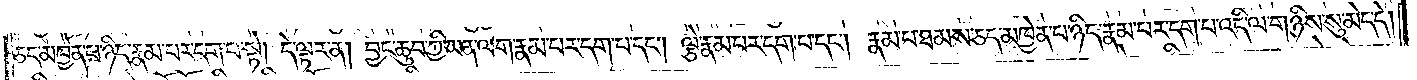ཅད་མཁྱེན་པ་ཉིད་རྣམ་པར་དག་པ་སྟེ། དེ་ལྟར་ན། བྱང་ཆུབ་ཀྱི་ཡན་ལག་རྣམ་པར་དག་པ་དང༌། ལྕེ་རྣམ་པར་དག་པ་དང༌། རྣམ་པ་ཐམས་ཅད་མཁྱེན་པ་ཉིད་རྣམ་པར་དག་པ་འདི་ལ་གཉིས་སུ་མེད་དེ།
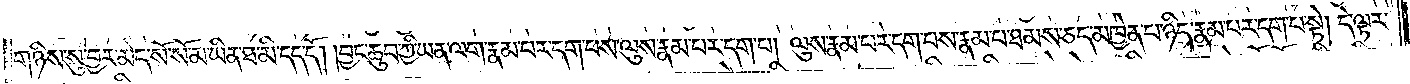གཉིས་སུ་བྱར་མེད་སོ་སོ་མ་ཡིན་ཐ་མི་དད་དོ། །བྱང་ཆུབ་ཀྱི་ཡན་ལག་རྣམ་པར་དག་པས་ལུས་རྣམ་པར་དག་པ། ལུས་རྣམ་པར་དག་པས་རྣམ་པ་ཐམས་ཅད་མཁྱེན་པ་ཉིད་རྣམ་པར་དག་པ་སྟེ། དེ་ལྟར་
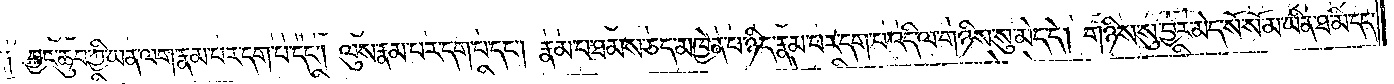ན༑ བྱང་ཆུབ་ཀྱི་ཡན་ལག་རྣམ་པར་དག་པ་དང༌། ལུས་རྣམ་པར་དག་པ་དང༌། རྣམ་པ་ཐམས་ཅད་མཁྱེན་པ་ཉིད་རྣམ་པར་དག་པ་འདི་ལ་གཉིས་སུ་མེད་དེ། གཉིས་སུ་བྱར་མེད་སོ་སོ་མ་ཡིན་ཐ་མི་དད་
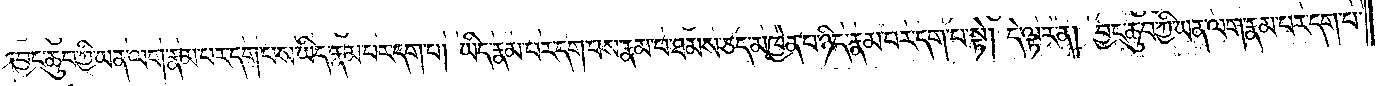བྱང་ཆུབ་ཀྱི་ཡན་ལག་རྣམ་པར་དག་པས་ཡིད་རྣམ་པར་དག་པ། ཡིད་རྣམ་པར་དག་པས་རྣམ་པ་ཐམས་ཅད་མཁྱེན་པ་ཉིད་རྣམ་པར་དག་པ་སྟེ། དེ་ལྟར་ན། བྱང་ཆུབ་ཀྱི་ཡན་ལག་རྣམ་པར་དག་པ་
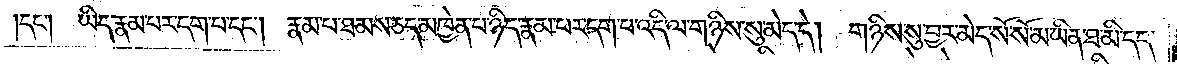དང༌། ཡིད་རྣམ་པར་དག་པ་དང༌། རྣམ་པ་ཐམས་ཅད་མཁྱེན་པ་ཉིད་རྣམ་པར་དག་པ་འདི་ལ་གཉིས་སུ་མེད་དེ། གཉིས་སུ་བྱར་མེད་སོ་སོ་མ་ཡིན་ཐ་མི་དད་
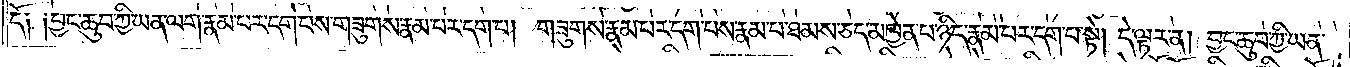དོ༑ ༑བྱང་ཆུབ་ཀྱི་ཡན་ལག་རྣམ་པར་དག་པས་གཟུགས་རྣམ་པར་དག་པ། གཟུགས་རྣམ་པར་དག་པས་རྣམ་པ་ཐམས་ཅད་མཁྱེན་པ་ཉིད་རྣམ་པར་དག་པ་སྟེ། དེ་ལྟར་ན། བྱང་ཆུབ་ཀྱི་ཡན་
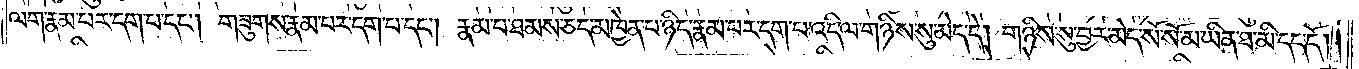ལག་རྣམ་པར་དག་པ་དང༌། གཟུགས་རྣམ་པར་དག་པ་དང༌། རྣམ་པ་ཐམས་ཅད་མཁྱེན་པ་ཉིད་རྣམ་པར་དག་པ་འདི་ལ་གཉིས་སུ་མེད་དེ། གཉིས་སུ་བྱར་མེད་སོ་སོ་མ་ཡིན་ཐ་མི་དད་དོ། །
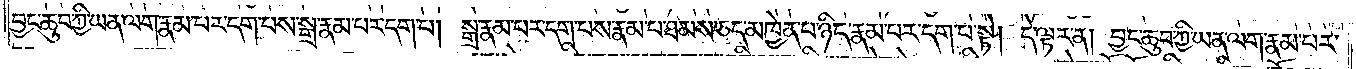བྱང་ཆུབ་ཀྱི་ཡན་ལག་རྣམ་པར་དག་པས་སྒྲ་རྣམ་པར་དག་པ། སྒྲ་རྣམ་པར་དག་པས་རྣམ་པ་ཐམས་ཅད་མཁྱེན་པ་ཉིད་རྣམ་པར་དག་པ་སྟེ། དེ་ལྟར་ན། བྱང་ཆུབ་ཀྱི་ཡན་ལག་རྣམ་པར་
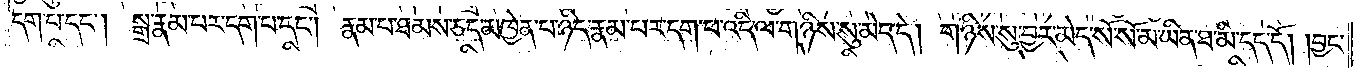དག་པ་དང༌། སྒྲ་རྣམ་པར་དག་པ་དང༌། རྣམ་པ་ཐམས་ཅད་མཁྱེན་པ་ཉིད་རྣམ་པར་དག་པ་འདི་ལ་གཉིས་སུ་མེད་དེ། གཉིས་སུ་བྱར་མེད་སོ་སོ་མ་ཡིན་ཐ་མི་དད་དོ། །བྱང་
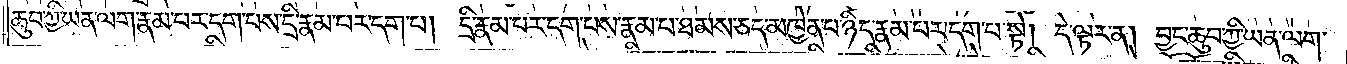ཆུབ་ཀྱི་ཡན་ལག་རྣམ་པར་དག་པས་དྲི་རྣམ་པར་དག་པ། དྲི་རྣམ་པར་དག་པས་རྣམ་པ་ཐམས་ཅད་མཁྱེན་པ་ཉིད་རྣམ་པར་དག་པ་སྟེ། དེ་ལྟར་ན། བྱང་ཆུབ་ཀྱི་ཡན་ལག་
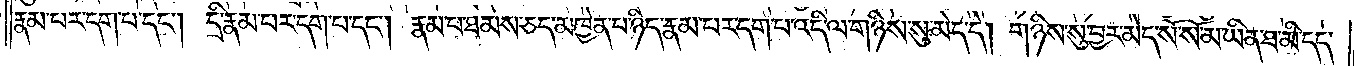རྣམ་པར་དག་པ་དང༌། དྲི་རྣམ་པར་དག་པ་དང༌། རྣམ་པ་ཐམས་ཅད་མཁྱེན་པ་ཉིད་རྣམ་པར་དག་པ་འདི་ལ་གཉིས་སུ་མེད་དེ། གཉིས་སུ་བྱར་མེད་སོ་སོ་མ་ཡིན་ཐ་མི་དད་
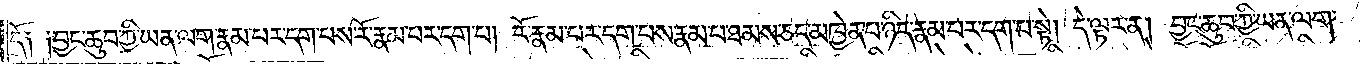དོ༑ ༑བྱང་ཆུབ་ཀྱི་ཡན་ལག་རྣམ་པར་དག་པས་རོ་རྣམ་པར་དག་པ། རོ་རྣམ་པར་དག་པས་རྣམ་པ་ཐམས་ཅད་མཁྱེན་པ་ཉིད་རྣམ་པར་དག་པ་སྟེ། དེ་ལྟར་ན། བྱང་ཆུབ་ཀྱི་ཡན་ལག་
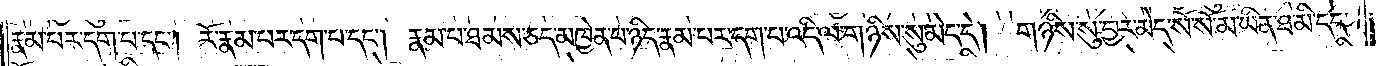རྣམ་པར་དག་པ་དང༌། རོ་རྣམ་པར་དག་པ་དང༌། རྣམ་པ་ཐམས་ཅད་མཁྱེན་པ་ཉིད་རྣམ་པར་དག་པ་འདི་ལ་གཉིས་སུ་མེད་དེ། གཉིས་སུ་བྱར་མེད་སོ་སོ་མ་ཡིན་ཐ་མི་དད་
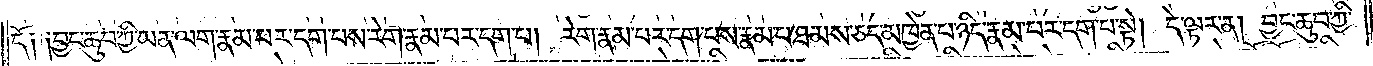དོ༑ ༑བྱང་ཆུབ་ཀྱི་ཡན་ལག་རྣམ་པར་དག་པས་རེག་རྣམ་པར་དག་པ། རེག་རྣམ་པར་དག་པས་རྣམ་པ་ཐམས་ཅད་མཁྱེན་པ་ཉིད་རྣམ་པར་དག་པ་སྟེ། དེ་ལྟར་ན། བྱང་ཆུབ་ཀྱི་
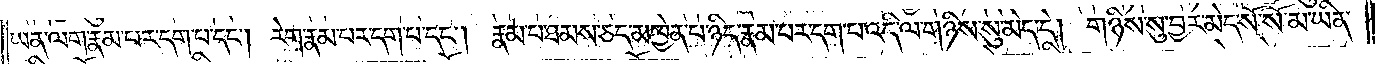ཡན་ལག་རྣམ་པར་དག་པ་དང༌། རེག་རྣམ་པར་དག་པ་དང༌། རྣམ་པ་ཐམས་ཅད་མཁྱེན་པ་ཉིད་རྣམ་པར་དག་པ་འདི་ལ་གཉིས་སུ་མེད་དེ། གཉིས་སུ་བྱར་མེད་སོ་སོ་མ་ཡིན་
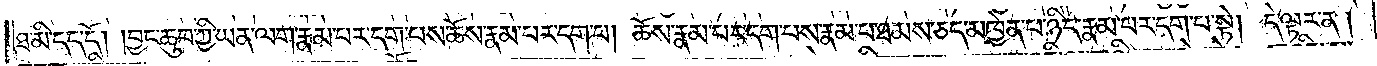ཐ་མི་དད་དོ། །བྱང་ཆུབ་ཀྱི་ཡན་ལག་རྣམ་པར་དག་པས་ཆོས་རྣམ་པར་དག་པ། ཆོས་རྣམ་པར་དག་པས་རྣམ་པ་ཐམས་ཅད་མཁྱེན་པ་ཉིད་རྣམ་པར་དག་པ་སྟེ། དེ་ལྟར་ན།
